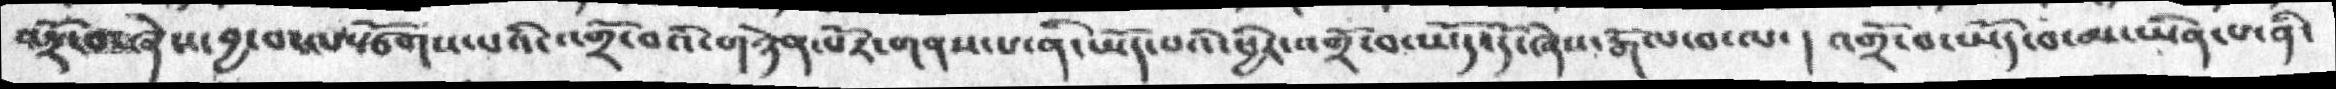འདྲོ་བ་ཞེས་བྱ་བ་ལསྩོགས་པའི་འགྲོ་བའི་གཉེན་པོར་གནས་པ་ནི་ཡོད་པའི་ཕྱིར་འགྲོ་བ་ཡོད་དོ་ཞེས་རྒོལ་བ་ལ་། འགྲོ་བ་ཡོད་བ་མ་ཡིན་པ་ནི་
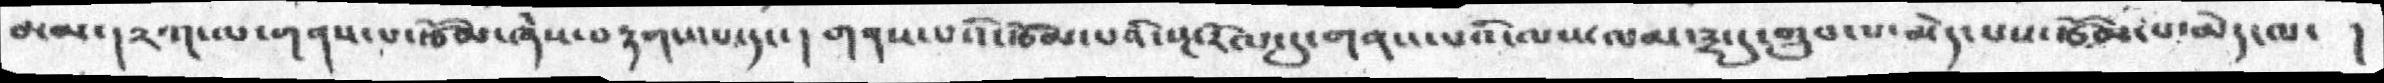མམ་། ༢ཀ་ལ་གནས་པ་རྩོམ་ཞེས་བརྟགས་པ་དང་། གནས་པའི་རྩོམ་པའི་སྔ་རོལ་དུ་གནས་པའི་ལས་ལམ་༣་དུ་གྲུབ་པ་མེད་པས་རྩོམ་པ་མེད་ལ་ །
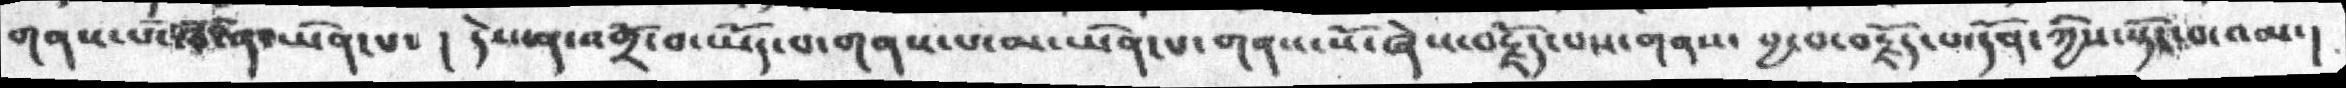གནས་པ་ཁོ་ན་ཡིན་པ་།  དེས་ན་འགྲོ་བ་ཡོད་པ་གནས་པ་མ་ཡིན་པ་གནས་སོ་ཞེས་བརྗོད་པས་གནས་བྱ་བ་བརྗོད་པ་དོན་ཀྱིས་སྟོང་བ་འམ་།
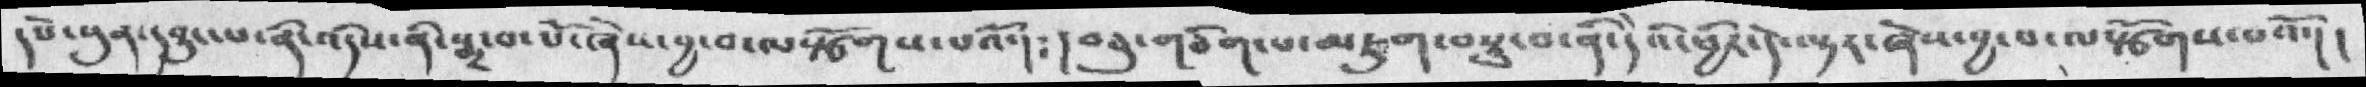དཔེ་སུན་དབྱུང་པ་ནི་འདིས་ནི་སྨྲ་བ་པོ་ཞེས་བྱ་བ་ལསྩོགས་པའོ་།༴།བཅུ་གཅིག་པ་མཇུག་བསྡུ་བ་ནི་དེའི་ཕྱིར་དེ་ལྟར་ཞེས་བྱ་བ་ལསྩོགས་པའོ་།།
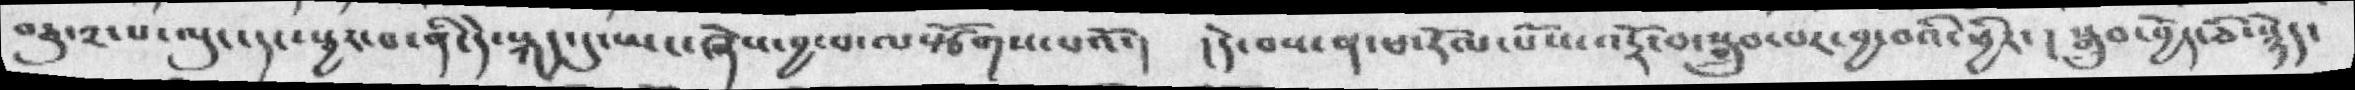བཅུ་༢་པ་ལུང་དང་སྦྱར་བ་ནི་དེ་སྐད་དུ་ཡང་ཞེས་བྱ་བ་ལསྩོགས་པའོ་།  །དེ་བས་ན་ཕ་རོལ་པོས་འདྲོ་བ་སྒྲུབ་པར་བྱ་བའི་ཕྱིར་། སྒྲུབ་བྱེད་ཅི་སྙེད་
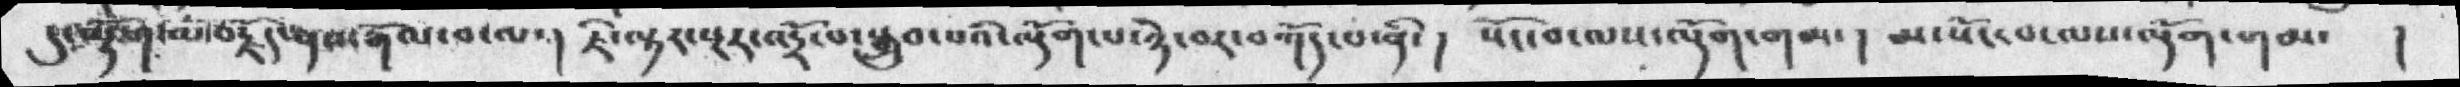དུ་ལྡོག་པ་བརྗོད་ནས་རྒོལ་བ་ལ་།  ཇི་ལྟར་སྔར་འདྲོ་པ་སྒྲུབ་པའི་ལྡོག་པ་ཉེ་བར་བཀོད་པ་ནི་།  སོང་བ་ལས་ལྡོག་གམ་།  མ་སོང་བ་ལས་ལྡོག་གམ་  །
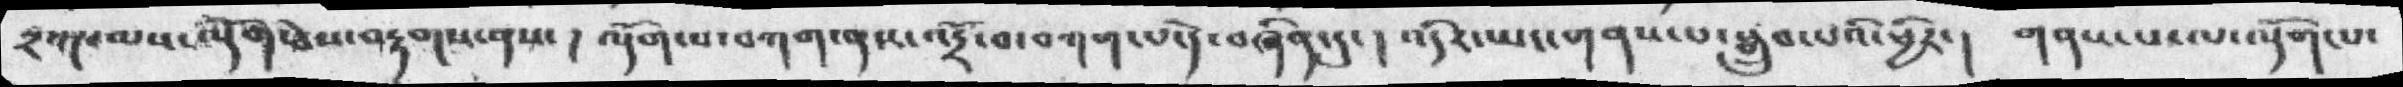༢ཀ་ལས་ལྡོག་ཅེས་བརྟགས་ནས་། ལྡོག་པ་བཀག་ནས་འདྲོ་བ་བཀག་པ་དེ་བཞིན་དུ་།  འདིར་ཡང་གནས་པ་སྒྲུབ་པའི་ཕྱིར་། གནས་པ་ལ་ལྡོག་པ་
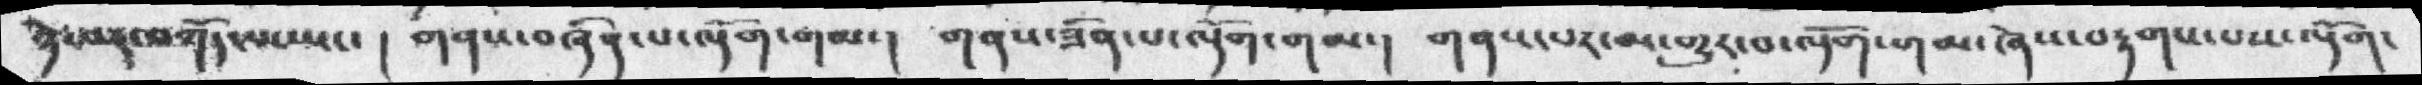ཉེ་བར་བཀོད་པ་ཡང་།  གནས་བཞིན་པ་ལྡོག་གམ་།  གནས་ཟིན་པ་ལྡོག་གམ་།  གནས་པར་མ་གྱུར་བ་ལྡོག་གམ་ཞེས་བརྟགས་པས་ལྡོག་
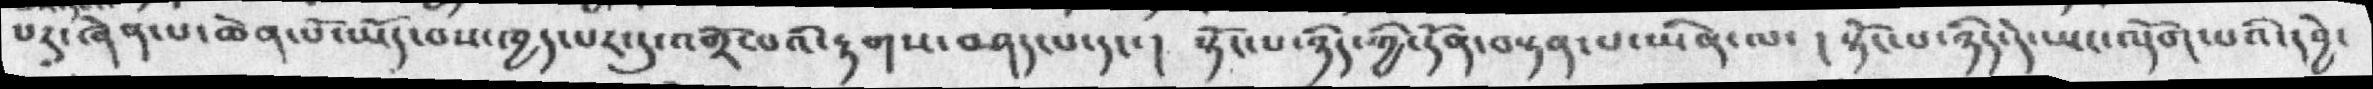པར་ཞེན་པ་ཆེན་པོ་ཡོད་པས་ཁྱད་པར་དུ་འགྲོ་བའི་རྟགས་བཤད་པ་དང་། སྟོང་པ་ཉིད་ཀྱི་དོན་བསྟན་པ་ཡིན་ལ་།  སྟོང་པ་ཉིད་དེ་ཡང་ལྡོག་པའི་དབྱེ་
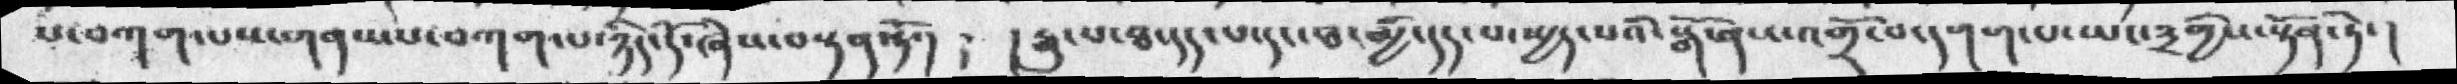པ་བཀག་པས་གནས་པ་བཀག་པ་ཉིད་དོ་ཞེས་བསྟན་ཏོ་།   །རྒུ་པ་ཐ་དད་པ་དང་ཐ་མྱི་དད་པ་སྤྱད་པའི་སྒོ་ནས་འགྲོ་བ་དགག་པ་ཡང་༣གྱིས་སྟོན་ཏེ་།
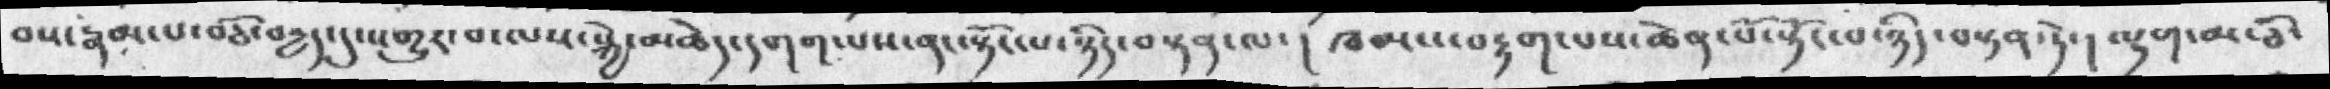བས་རྣམ་པ་བཅོ་བརྒྱད་དུ་འགྱུར་བ་ལས་སྐྱེ་མཆེད་དགག་པས་ན་སྟོང་པ་ཉིད་བསྟན་ལ་། ཁམས་བརྟག་པས་ཆེན་པོ་སྟོང་པ་ཉིད་བསྟན་ཏེ་། ལྷག་མ་ཅི་
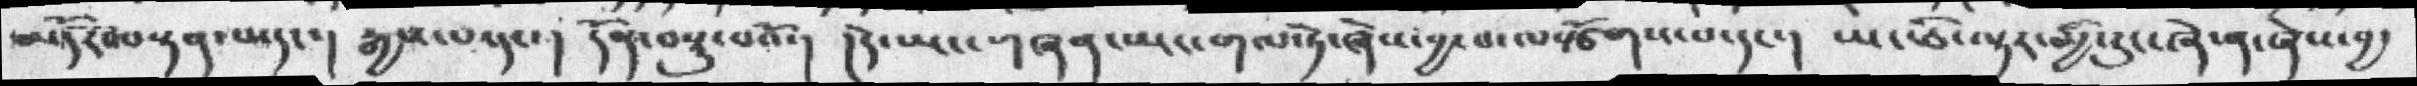མདོར་བསྟན་པ་དང་། རྒྱས་པ་དང་། དོན་བསྡུ་པའོ་། །དེ་ཡང་གཞན་ཡང་གལ་ཏེ་ཞེས་བྱ་བ་ལསྩོགས་པ་དང་། ཡང་ཅི་ལྟར་མྱི་རུང་ཞེ་ན་ཞེས་བྱ་
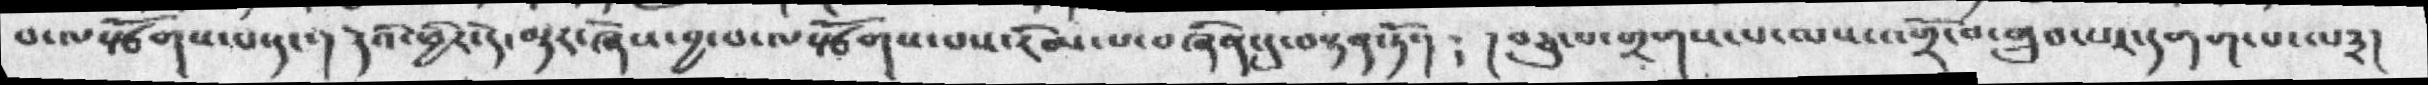པ་ལསྩོགས་པ་དང་། དེའི་ཕྱིར་དེ་ལྟར་ཞེས་བྱ་བ་ལསྩོགས་པས་རིམ་པ་བཞིན་དུ་བསྟན་ཏོ་། །བཅུ་པ་གྲགས་པ་ལས་འགྲོ་བ་གྲུབ་པར་དགག་པ་ལ༣།
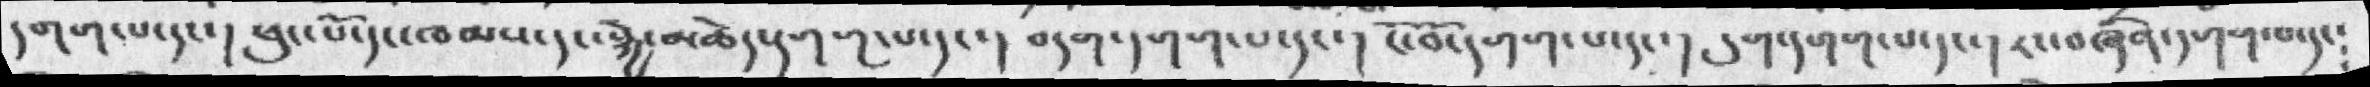དགག་པ་དང་། ཕུང་པོ་དང་ཁམས་དང་སྐྱེ་མཆེད་དགག་པ་དང་། བདག་དགག་པ་དང་། ངོ་བོ་དགག་པ་དང་། དུག་དགག་པ་དང་། རང་བཞིན་དགག་པ་དང༴
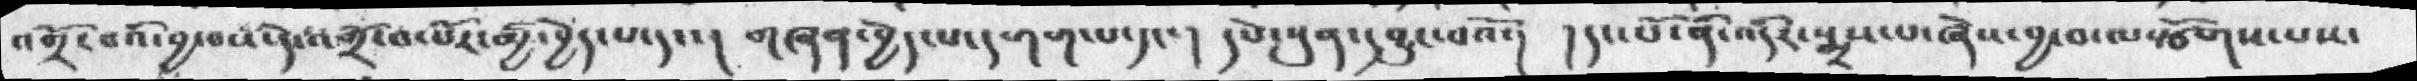འགྲོ་བའི་བྱ་བས་དེ་འགྲོ་བ་པོར་མྱི་བྱེད་པ་དང་།  གཞན་བྱེད་པ་དགག་པ་དང་། དཔེ་སུན་དབྱུང་པའོ་།  །དང་པོ་ནི་འདིར་སྨྲས་པ་ཞེས་བྱ་བ་ལསྩོགས་པས་
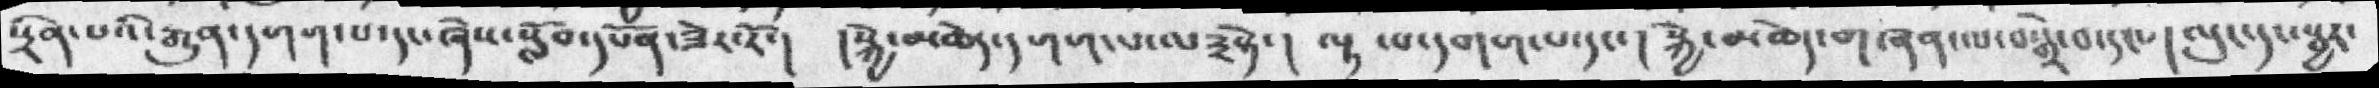སྲིན་པའི་རྒྱུན་དགག་པ་དང་ཞེས་སློབ་དཔོན་ཟེར་རོ་།  །སྐྱེ་མཆེད་དགག་པ་ལ༣སྟེ་། ལྟ་བ་དགག་པ་དང་།  སྐྱེ་མཆེད་གཞན་ལ་བསྒྲེ་བ་དང་། ལུང་དང་སྦྱར་
